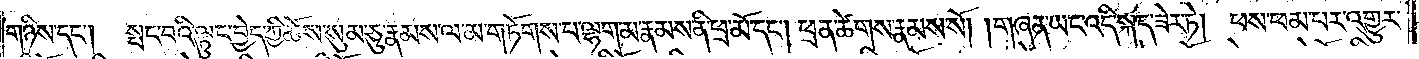གཉིས་དང༌། སྤང་བའི་ལྟུང་བྱེད་ཀྱི་ཆོས་སུམ་ཅུ་རྣམས་ལ་མ་གཏོགས་པ་ལྷག་མ་རྣམས་ནི་ཕྲ་མོ་དང༌། ཕྲན་ཚེགས་རྣམས་སོ། །གཞན་ཡང་འདི་སྐད་ཟེར་ཏེ། ཕས་ཕམ་པར་འགྱུར་
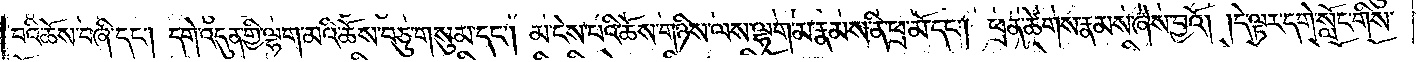བའི་ཆོས་བཞི་དང༌། དགེ་འདུན་གྱི་ལྷག་མའི་ཆོས་བཅུ་གསུམ་དང༌། མ་ངེས་པའི་ཆོས་གཉིས་ལས་ལྷག་མ་རྣམས་ནི་ཕྲ་མོ་དང༌། ཕྲན་ཚེགས་རྣམས་ཞེས་བྱའོ། །དེ་ལྟར་དགེ་སློང་གིས་
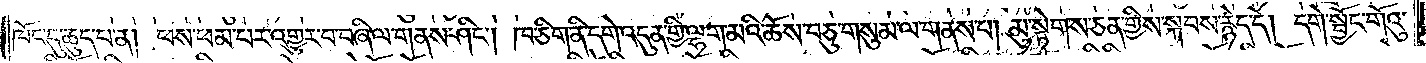ཁོང་དུ་ཆུད་པ་ན། ཕས་ཕམ་པར་འགྱུར་བ་བཞི་ལ་གནས་ཤིང༌། ཁ་ཅིག་ནི་དགེ་འདུན་གྱི་ལྷག་མའི་ཆོས་བཅུ་གསུམ་ལ་གནས་པ། མུ་སྟེགས་ཅན་གྱིས་སྐབས་རྙེད་དེ། དགེ་སྦྱོང་གོའུ་
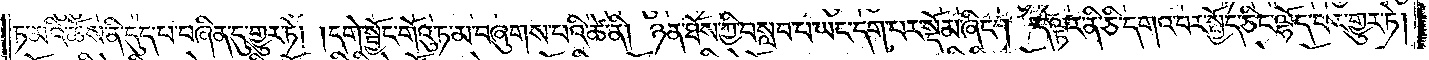ཏ་མའི་ཆོས་ནི་དུད་པ་བཞིན་དུ་གྱུར་ཏེ། །དགེ་སྦྱོང་གོའུ་ཏ་མ་བཞུགས་པའི་ཚེ་ནི། ཉན་ཐོས་ཀྱི་བསླབ་པ་ཡང་དག་པར་སྡོམ་ཞིང༌། ད་ལྟར་ནི་ཅི་དགའ་བར་སྤྱོད་ཅིང་ལྷོད་པར་གྱུར་ཏེ།
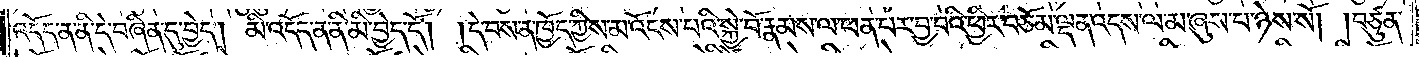འདོད་ན་ནི་དེ་བཞིན་དུ་བྱེད། མི་འདོད་ན་ནི་མི་བྱེད་དོ། །དེ་བས་ན་ཁྱོད་ཀྱིས་མ་འོངས་པའི་སྐྱེ་བོ་རྣམས་ལ་ཕན་པར་བྱ་བའི་ཕྱིར་བཅོམ་ལྡན་འདས་ལ་མ་ཞུས་པ་ཉེས་སོ། །བཙུན་
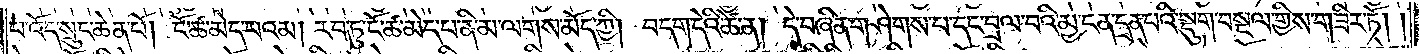པ་འོད་སྲུང་ཆེན་པོ། ངོ་ཚ་མེད་པའམ། རབ་ཏུ་ངོ་ཚ་མེད་པ་ནི་མ་ལགས་མོད་ཀྱི། བདག་དེའི་ཚེ་ན། དེ་བཞིན་གཤེགས་པ་དང་བྲལ་བའི་མྱ་ངན་དྲན་པའི་སྡུག་བསྔལ་གྱིས་གཟིར་ཏོ། །
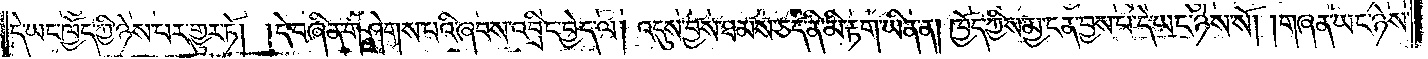དེ་ཡང་ཁྱོད་ཀྱི་ཉེས་པར་གྱུར་ཏོ། །དེ་བཞིན་གཤེགས་པའི་ཞབས་འབྲིང་བྱེད་ལ། འདུས་བྱས་ཐམས་ཅད་ནི་མི་རྟག་ཡིན་ན། ཁྱོད་ཀྱིས་མྱ་ངན་བྱས་པ་དེ་ཡང་ཉེས་སོ། །གཞན་ཡང་ཉེས་
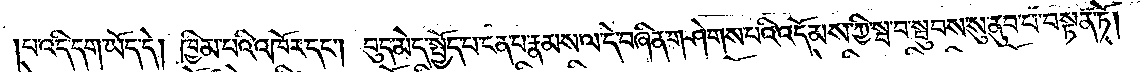།པ་འདི་དག་ཡོད་དེ། ཁྱིམ་པའི་འཁོར་དང༌། བུད་མེད་སྤྱོད་པ་ངན་པ་རྣམས་ལ་དེ་བཞིན་གཤེགས་པའི་འདོམས་ཀྱི་སྦ་བ་སྦུབས་སུ་ནུབ་པ་བསྟན་ཏོ། །
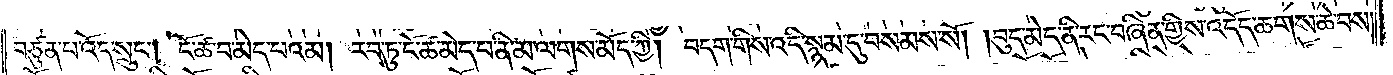བཙུན་པ་འོད་སྲུང༌། ངོ་ཚ་བ་མེད་པའམ། རབ་ཏུ་ངོ་ཚ་མེད་པ་ནི་མ་ལགས་མོད་ཀྱི། བདག་གིས་འདི་སྙམ་དུ་བསམས་སོ། །བུད་མེད་ནི་རང་བཞིན་གྱིས་འདོད་ཆགས་ཆེ་བས།
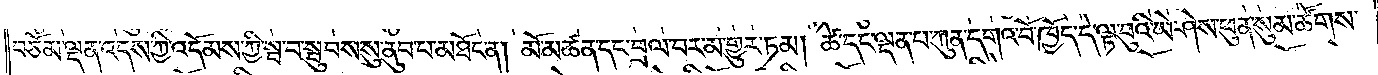བཅོམ་ལྡན་འདས་ཀྱི་འདོམས་ཀྱི་སྦ་བ་སྦུབས་སུ་ནུབ་པ་མཐོང་ན། མོ་མཚན་དང་བྲལ་བར་མ་གྱུར་ཏམ། ཚེ་དང་ལྡན་པ་ཀུན་དགའ་བོ་ཁྱོད་དེ་ལྟ་བུའི་ཡེ་ཤེས་ཕུན་སུམ་ཚོགས་
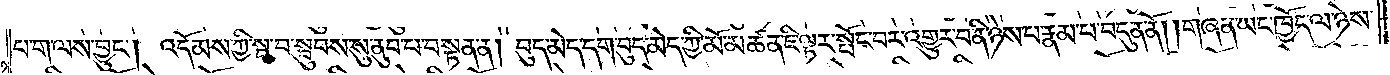པ་ག་ལས་བྱུང༌། འདོམས་ཀྱི་སྦ་བ་སྦུབས་སུ་ནུབ་པ་བསྟན་ན། བུད་མེད་དག་བུད་མེད་ཀྱི་མོ་མཚན་ཇི་ལྟར་སྤོང་བར་འགྱུར་བ་ནི་ཉེས་པ་རྣམ་པ་བདུན་ནོ། །གཞན་ཡང་ཁྱོད་ལ་ཉེས་
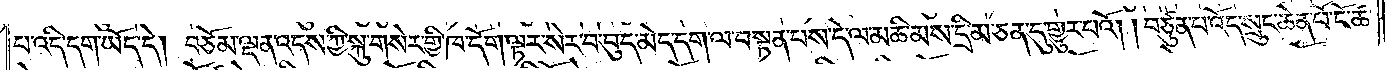པ་འདི་དག་ཡོད་དེ། བཅོམ་ལྡན་འདས་ཀྱི་སྐུ་གསེར་གྱི་ཁ་དོག་ལྟར་སེར་བ་བུད་མེད་དག་ལ་བསྟན་པས་དེ་ལ་མཆི་མས་དྲི་མ་ཅན་དུ་གྱུར་པའོ། །བཙུན་པ་འོད་སྲུང་ཆེན་པོ་ངོ་ཚ་
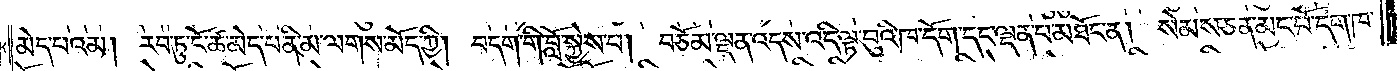མེད་པའམ། རབ་ཏུ་ངོ་ཚ་མེད་པ་ནི་མ་ལགས་མོད་ཀྱི། བདག་གི་བློ་སྐྱེས་པ། བཅོམ་ལྡན་འདས་འདི་ལྟ་བུའི་ཁ་དོག་དང་ལྡན་པ་མཐོང་ན། སེམས་ཅན་མང་པོ་དག་ཁ་
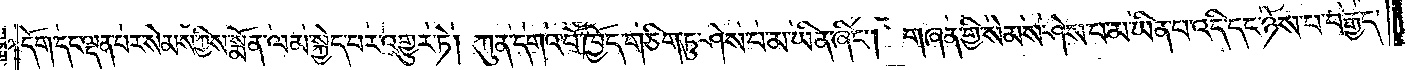དོག་དང་ལྡན་པར་སེམས་ཀྱིས་སྨོན་ལམ་སྐྱེད་པར་འགྱུར་ཏེ། ཀུན་དགའ་བོ་ཁྱོད་གཅིག་ཏུ་ཤེས་པ་མ་ཡིན་ཞིང༌། གཞན་གྱི་སེམས་ཤེས་པ་མ་ཡིན་པ་འདི་དང་ཉེས་པ་བརྒྱད་
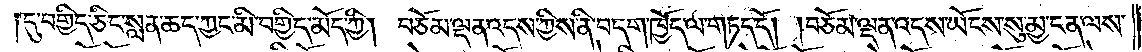།དུ་བགྱིད་ཅིང་སླན་ཆད་ཀྱང་མི་བགྱིད་མོད་ཀྱི། བཅོམ་ལྡན་འདས་ཀྱིས་ནི་བདག་ཁྱོད་ལ་གཏད་དོ། །བཅོམ་ལྡན་འདས་ཡོངས་སུ་མྱ་ངན་ལས་
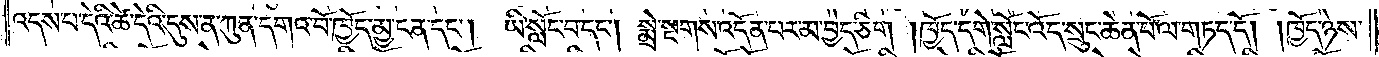འདས་པ་དེའི་ཚེ་དེའི་དུས་ན་ཀུན་དགའ་བོ་ཁྱོད་མྱ་ངན་དང༌། ཡི་སློང་བ་དང༌། སྨྲེ་སྔགས་འདོན་བར་མ་བྱེད་ཅིག །ཁྱོད་དགེ་སློང་འོད་སྲུང་ཆེན་པོ་ལ་གཏད་དོ། །ཁྱོད་ཉེས་
